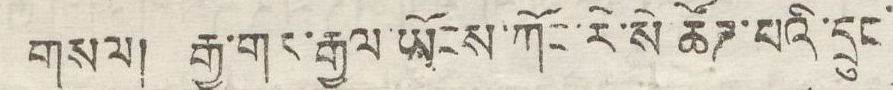གསལ། རྒྱ་གར་རྒྱལ ཡོངས་ཀོང་རེ་སེ ཚོཌ་པའི་དྲུང
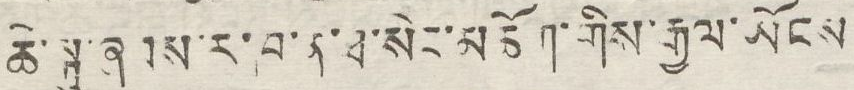ཆེ་སྐུ་ཞབས་ར་ཁ་ན་ཐ་སེང་མཆོག་གིས་རྒྱལ་ཡོངས
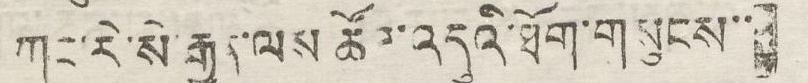ཀང་རེ་སེ་རྒྱུད་ལས་ཚོཌ་འདུའི་ཐོག་གསུངས་་
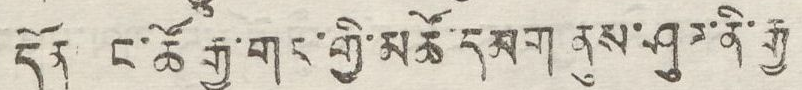དོན ང་ཚོའི་རྒྱ་གར་གྱི་མཚོ་དམག ནུས་ཤུཌ་ནི་རྒྱ
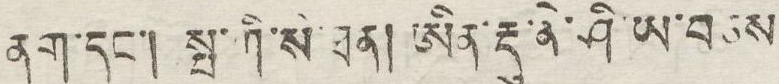ནག་དང་། སྤ་ཀི་སི་ཐན། ཨིན་རྡུ་ནེ་ཤི་ཡ་བཅས
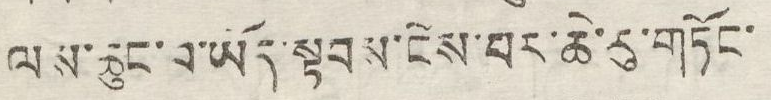ལས་ཆུང་བ་ཡོད་སྟབས་ངེས་པར་ཆེ་རུ་གཏོང་
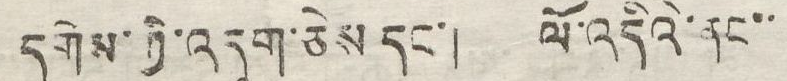དགེས་ཀྱི་འདུག་ཅེས དང་། ལོ་འདིའི་ནང་་
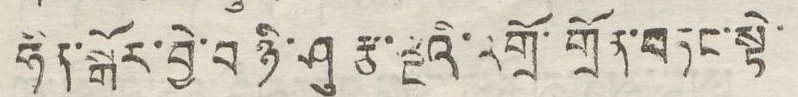ཧིན་སྒོར་བྱེ་བ་ཉི་ཤུ རྩ་ལྔའི་འགྲོ་གྲོན་བཏང་སྟེ་
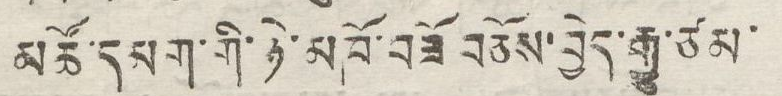མཚོ་དམག་གི་ཉེ་མཁོ་བཟོ བཅོས་བྱེད་རྒྱུ་ཙམ་
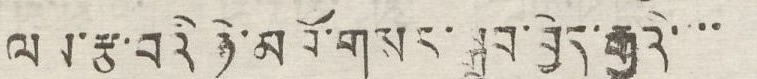ལས་རྩ་བའི ཉི་མ་ཁོ་གསར་སྒྲུབ་བྱེད་རྒྱུའི་་་་
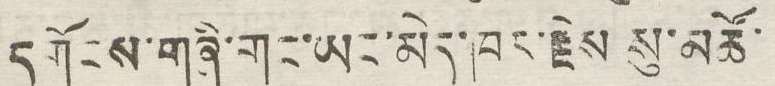དགོངས་གཞི་གང་ཡང་མེད་ཁར་རྗེས སུ་མཚོ་
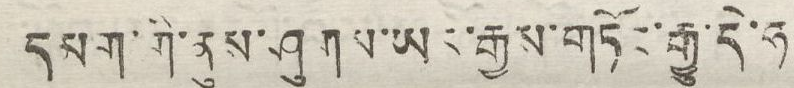དམག་གི་ནུས་ཤུགས་ཡར་རྒྱས་གཏོང་རྒྱུ་དེ་ཧ་
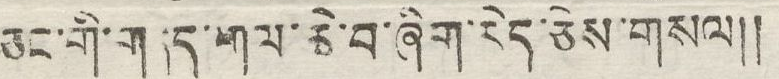ཅང་གི་གནད་གལ་ཆེ་བ་ཞིག་རེད་ཅེས་གསལ།།
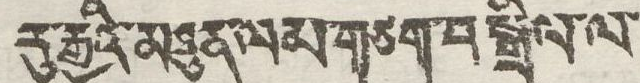རུ་རྒྱའི་མཐུན་ལམ་གཙག་བསྒྲིལ་ལ་
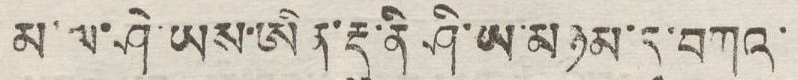མ་ལ་ཤེ་ཡས་ཨིན་རྡུ་ནི ཤི་ཡ་མཉམ་དུ་བཀའ་
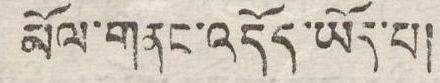མོལ་གནང་འདོད་ཡོད་པ།
